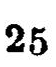25
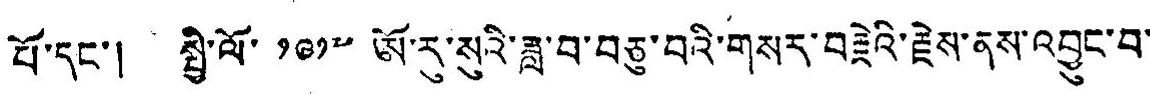པོ་དང་། སྤྱི་ལོ་ ༡༩༡༧ ཨོ་རུ་སུའི་ཟླ་བ་བཅུ་བའི་གསར་བརྗེའི་རྗེས་ནས་འབྱུང་བ་
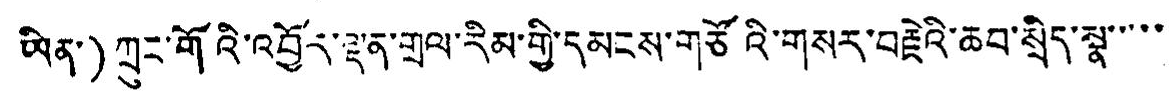ཡིན་)ཀྲུང་གོའི་འབྱོར་ལྡན་གྲལ་རིམ་གྱི་དམངས་གཙོའི་གསར་བརྗེའི་ཆབ་སྲིད་སྣ་་་་་
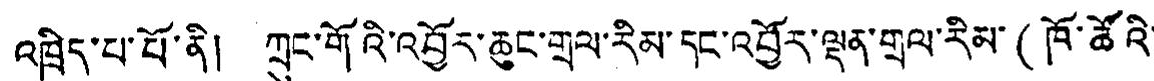འཁྲིད་པ་པོ་ནི། ཀྲུང་གོའི་འབྱོར་ཆུང་གྲལ་རིམ་དང་འབྱོར་ལྡན་གྲལ་རིམ་(ཁོ་ཚོའི་
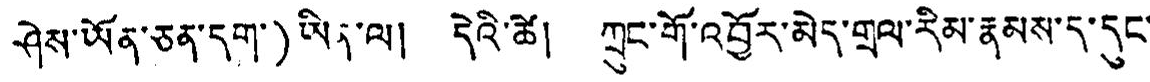ཤེས་ཡོན་ཅན་དག་)ཡིན་ལ། དེའི་ཚེ། ཀྲུང་གོ་འབྱོར་མེད་གྲལ་རིམ་རྣམས་ད་དུང་
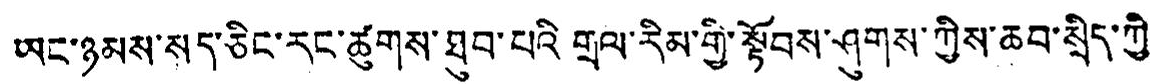ཡང་ཉམས་སད་ཅིང་རང་ཚུགས་ཐུབ་པའི་གྲལ་རིམ་གྱི་སྟོབས་ཤུགས་ཀྱིས་ཆབ་སྲིད་ཀྱི་
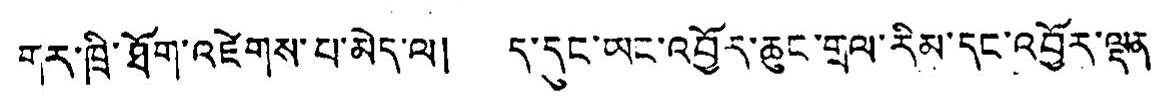གར་ཁྲི་ཐོག་འཛེགས་པ་མེད་ལ། ད་དུང་ཡང་འབྱོར་ཆུང་གྲལ་རིམ་དང་འབྱོར་ལྡན་
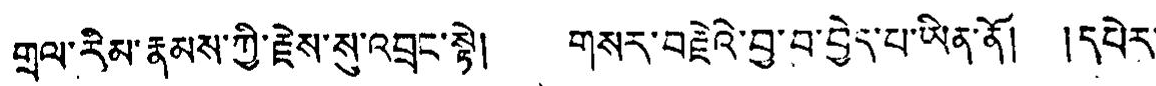གྲལ་རིམ་རྣམས་ཀྱི་རྗེས་སུ་འབྲང་སྟེ། གསར་བརྗེའི་བྱ་བ་བྱེད་པ་ཡིན་ནོ། །དཔེར་
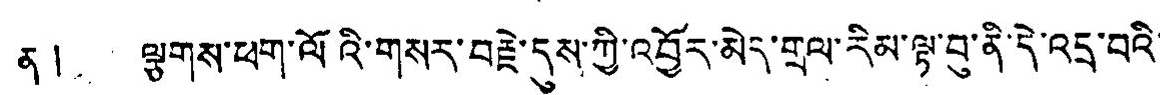ན། ལྕགས་ཕག་ལོའི་གསར་བརྗེ་དུས་ཀྱི་འབྱོར་མེད་གྲལ་རིམ་ལྟ་བུ་ནི་དེ་འདྲ་བའི་
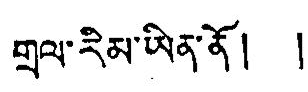གྲལ་རིམ་ཡིན་ནོ། །
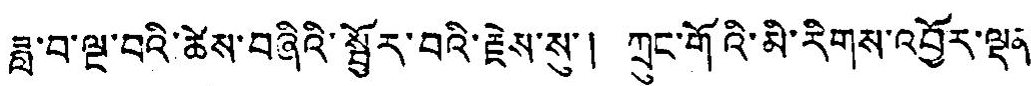ཟླ་བ་ལྔ་བའི་ཚེས་བཞིའི་སྦྱོར་བའི་རྗེས་སུ་། ཀྲུང་གོའི་མི་རིགས་འབྱོར་ལྡན་
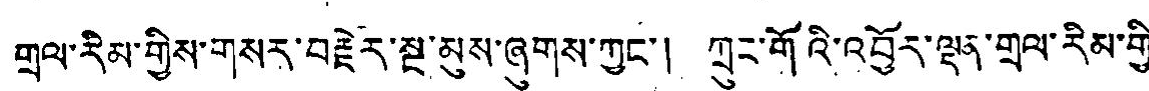གྲལ་རིམ་གྱིས་གསར་བརྗེར་སྔ་མུས་ཞུགས་ཀྱང་། ཀྲུང་གོའི་འབྱོར་ལྡན་གྲལ་རིམ་གྱི་
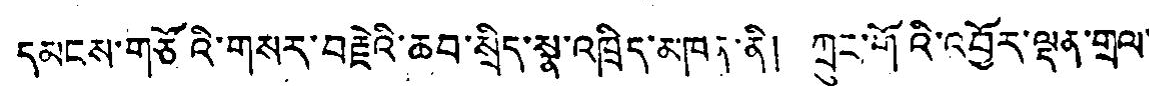དམངས་གཙོའི་གསར་བརྗེའི་ཆབ་སྲིད་སྣ་འཁྲིད་མཁན་ནི། ཀྲུང་གོའི་འབྱོར་ལྡན་གྲལ་
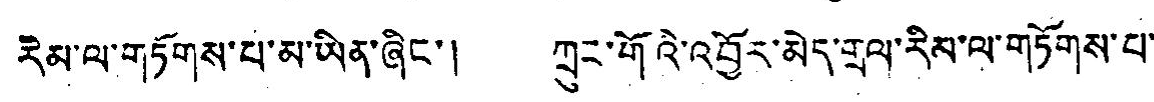རིམ་ལ་གཏོགས་པ་མ་ཡིན་ཞིང་། ཀྲུང་གོའི་འབྱོར་མེད་གྲལ་རིམ་ལ་གཏོགས་པ་
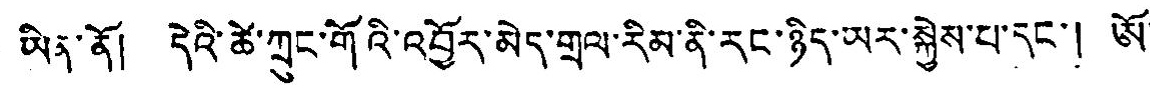ཡིན་ནོ། དེའི་ཚེ་ཀྲུང་གོའི་འབྱོར་མེད་གྲལ་རིམ་ནི་རང་ཉིད་ཡར་སྐྱེས་པ་དང་། ཨོ་
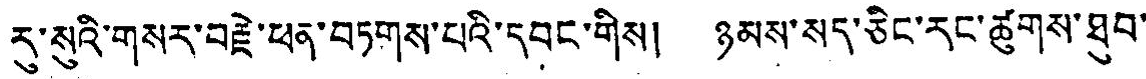རུ་སུའི་གསར་བརྗེ་ཕན་བཏགས་པའི་དབང་གིས། ཉམས་སད་ཅིང་རང་ཚུགས་ཐུབ་
